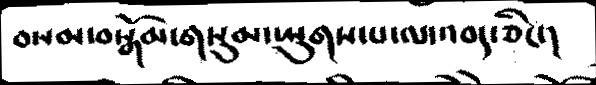བསམ་བསྒོམ་གསུམ་ཡུགས་པ་ལ་འབད་ཅིང་།
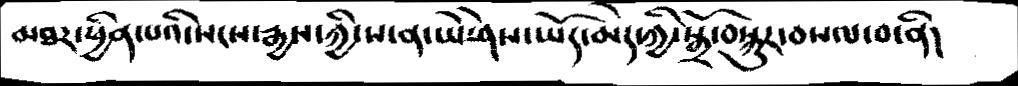མཐར་ཕྱིན་པའི་སངས་རྒྱས་ཀྱི་ས་ན་ཡེ་ཤེས་ཡོད་མེད་ཀྱི་སྒྲོ་བསྐུར་བསལ་བ་ནི།
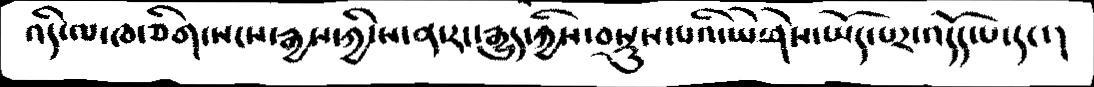འདི་ལ་ཁ་ཅིག་སངས་རྒྱས་ཀྱི་ས་ན་རང་རྒྱུད་ཀྱིས་བསྡུས་པའི་ཡེ་ཤེས་ཡོད་པར་འདོད་པ་དང་།
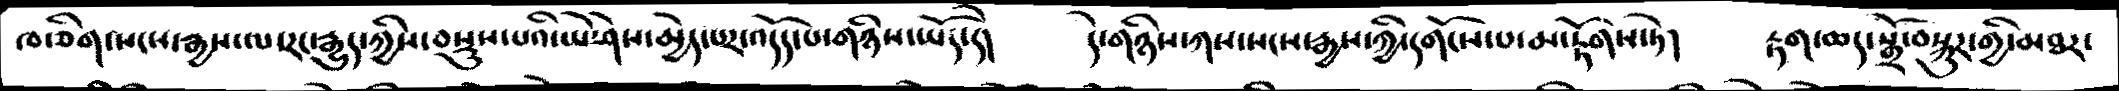ཁ་ཅིག་སངས་རྒྱས་ལ་རང་རྒྱུད་ཀྱིས་བསྡུས་པའི་ཡེ་ཤེས་མེད་པར་འདོད་པ་གཉིས་ཡོད་དེ།    དེ་གཉིས་ཀས་སངས་རྒྱས་ཀྱི་དགོངས་པ་མ་རྟོགས་ཏེ།   རྟག་ཆད་སྒྲོ་བསྐུར་གྱི་མཐར་
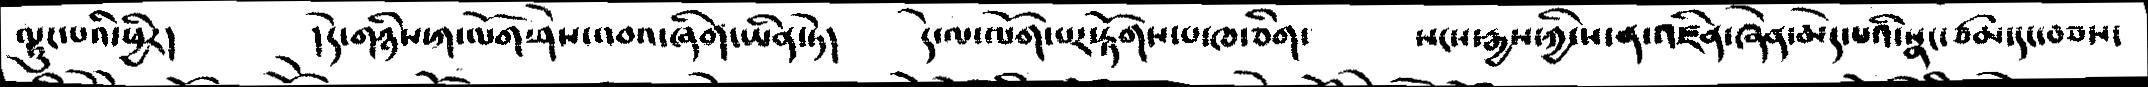ལྷུང་པའི་ཕྱིར།    ། དེ་གཉིས་ཀ་ལོག་ཤེས་འབའ་ཞིག་ཡིན་ཏེ།    དེ་ལ་ལོག་པར་རྟོགས་པ་ཁ་ཅིག་      སངས་རྒྱས་ཀྱི་ས་ན་འཛིན་ཞེན་མེད་པའི་སྣང་ཙམ་དང་བཅས་
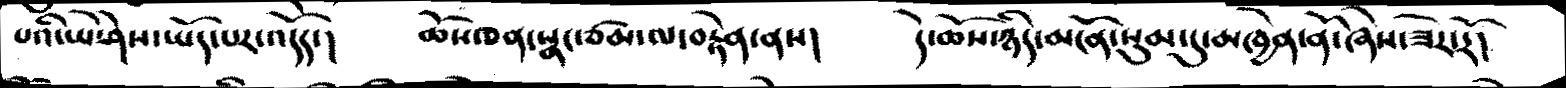པའི་ཡེ་ཤེས་ཡོད་པར་འདོད་།    ཆོས་ཅན་སྣང་ཙམ་ལ་རྟེན་ནས།   དེ་ཆོས་ཉིད་མངོན་སུམ་དུ་མཁྱེན་ནོ་ཞེས་ཟེར་རོ།
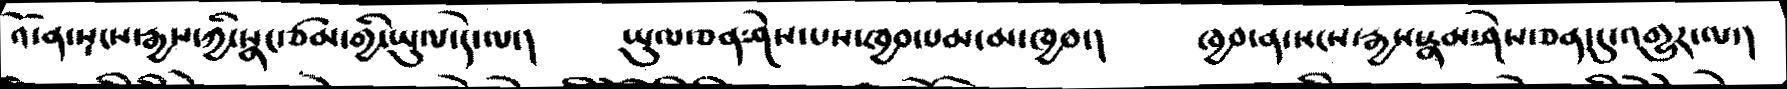འོ་ན་སངས་རྒྱས་ཀྱི་སྣང་ཙམ་གྱི་ཡུལ་དེ་ལ་།   ཡུལ་ཅན་ཤེས་པས་ཁྱབ་བམ་མ་ཁྱབ་།   ཁྱབ་ན་སངས་རྒྱས་རྣམ་ཤེས་ཅན་དུ་འགྱུར་ལ་།
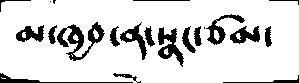མ་ཁྱབ་ན་སྣང་ཙམ་
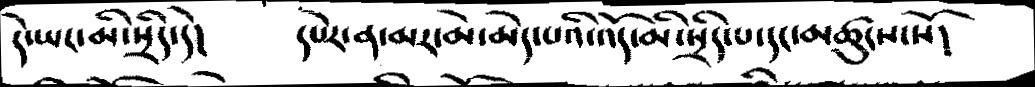དེ་ཡང་མི་སྲིད་དེ།    དཔེར་ན་མར་མེ་མེད་པའི་འོད་མི་སྲིད་པ་དང་མཚུངས་སོ།
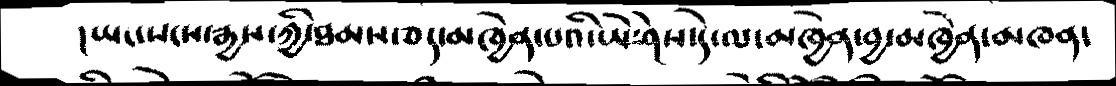། ཡང་སངས་རྒྱས་ཀྱི་ཐམས་ཅད་མཁྱེན་པའི་ཡེ་ཤེས་དེ་ལ་མཁྱེན་བྱ་མཁྱེན་མཁན་
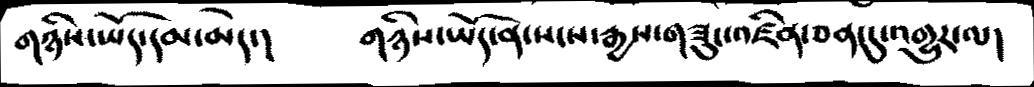གཉིས་ཡོད་དམ་མེངད།    གཉིས་ཡོད་ན་སངས་རྒྱས་གཟུང་འཛིན་ཅན་དུ་འགྱུར་ལ།
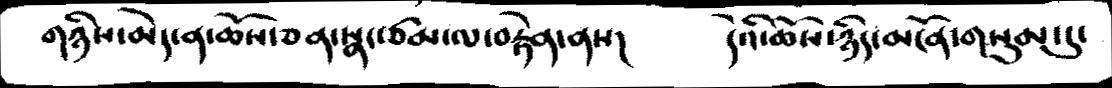གཉིས་མེད་ན་ཆོས་ཅན་སྣང་ཙམ་ལ་བརྟེན་ནས།     དེའི་ཆོས་ཉིད་མངོན་གསུམ་དུ་
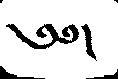༅།
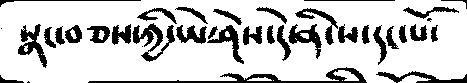སྣང་བཅས་ཀྱི་ཡེ་ཤེས་དེ་ནི་ས་དང་པོ་
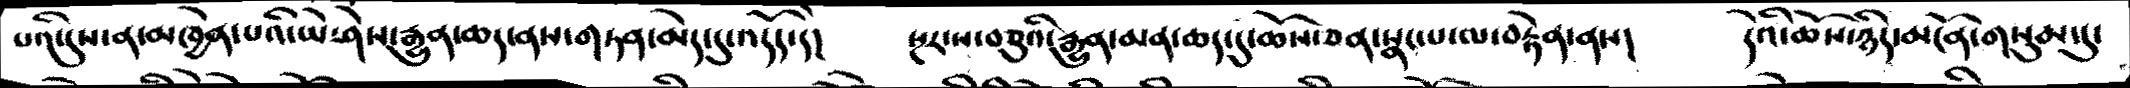པའི་དུས་ན་མཁྱེན་པའི་ཡེ་ཤེས་རྒྱུན་ཆད་ནས་གཏན་མེད་དུ་འདོད་དེ།  སྔར་ས་བཅུའི་རྒྱུན་མན་ཆད་དུ་ཆོས་ཅན་སྣང་པ་ལ་བརྟེན་ནས།   དེའི་ཆོས་ཉིད་མངོན་གསུམ་དུ་
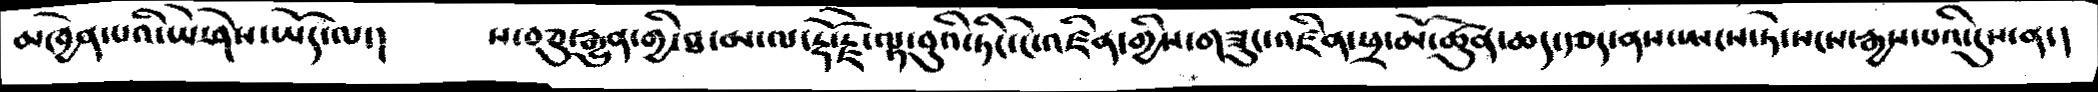མཁྱེན་པའི་ཡེ་ཤེས་ཡོད་ལ་།    ས་བཅུ་རྒྱུན་གྱི་ཐ་མ་ལ་རྡོ་རྗེ་ལྟ་བུའི་ཏིང་ངེ་འཛིན་གྱིས་གཟུང་འཛིན་ཕྲ་མོ་ཚུན་ཆད་རྩད་ནས་སྤངས་ཏེ་སངས་རྒྱས་པའི་དུས་ན་།
